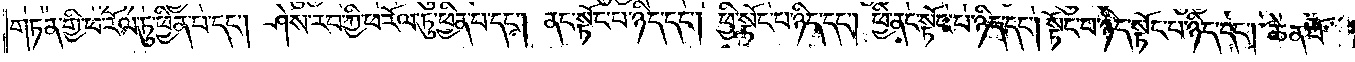གཏན་གྱི་ཕ་རོལ་ཏུ་ཕྱིན་པ་དང༌། ཤེས་རབ་ཀྱི་ཕ་རོལ་ཏུ་ཕྱིན་པ་དང༌། ནང་སྟོང་པ་ཉིད་དང༌། ཕྱི་སྟོང་པ་ཉིད་དང༌། ཕྱི་ནང་སྟོང་པ་ཉིད་དང༌། སྟོང་པ་ཉིད་སྟོང་པ་ཉིད་དང༌། ཆེན་པོ་
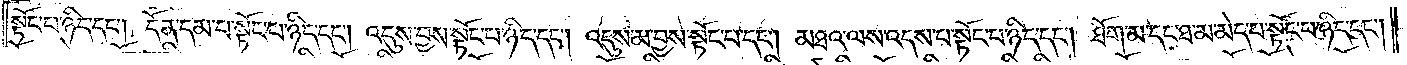སྟོང་པ་ཉིད་དང༌། དོན་དམ་པ་སྟོང་པ་ཉིད་དང༌། འདུས་བྱས་སྟོང་པ་ཉིད་དང༌། འདུས་མ་བྱས་སྟོང་པ་དང༌། མཐའ་ལས་འདས་པ་སྟོང་པ་ཉིད་དང༌། ཐོག་མ་དང་ཐ་མ་མེད་པ་སྟོང་པ་ཉིད་དང༌།
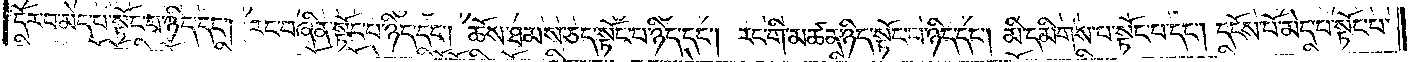དོར་བ་མེད་པ་སྟོང་པ་ཉིད་དང༌། རང་བཞིན་སྟོང་པ་ཉིད་དང༌། ཆོས་ཐམས་ཅད་སྟོང་པ་ཉིད་དང༌། རང་གི་མཚན་ཉིད་སྟོང་པ་ཉིད་དང༌། མི་དམིགས་པ་སྟོང་པ་དང༌། དངོས་པོ་མེད་པ་སྟོང་པ་
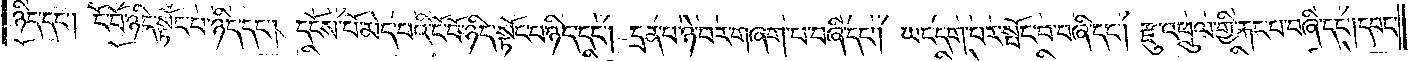ཉིད་དང༌། ངོ་བོ་ཉིད་སྟོང་པ་ཉིད་དང༌། དངོས་པོ་མེད་པའི་ངོ་བོ་ཉིད་སྟོང་པ་ཉིད་དང༌། དྲན་པ་ཉེ་བར་གཞག་པ་བཞི་དང༌། ཡང་དག་པར་སྤོང་བ་བཞི་དང༌། རྫུ་འཕྲུལ་གྱི་རྐང་པ་བཞི་དང༌། དབང་
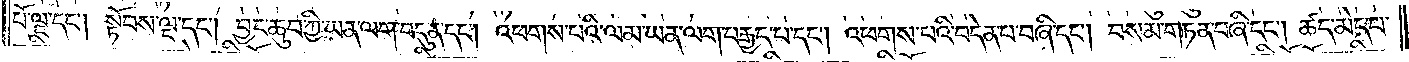པོ་ལྔ་དང༌། སྟོབས་ལྔ་དང༌། བྱང་ཆུབ་ཀྱི་ཡན་ལག་བདུན་དང༌། འཕགས་པའི་ལམ་ཡན་ལག་བརྒྱད་པ་དང༌། འཕགས་པའི་བདེན་པ་བཞི་དང༌། བསམ་གཏན་བཞི་དང༌། ཚད་མེད་པ་
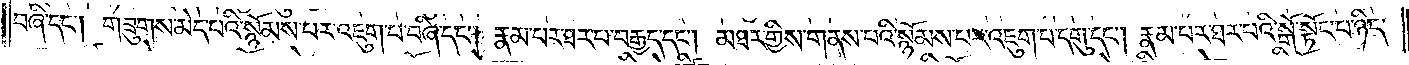བཞི་དང༌། གཟུགས་མེད་པའི་སྙོམས་བར་འཇུག་པ་བཞི་དང༌། རྣམ་པར་ཐར་པ་བརྒྱད་དང༌། མཐར་གྱིས་གནས་པའི་སྙོམས་པར་འཇུག་པ་དགུ་དང༌། རྣམ་པར་ཐར་པའི་སྒོ་སྟོང་པ་ཉིད་
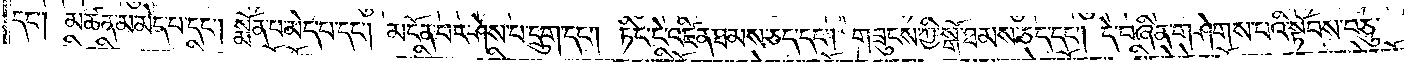དང༌། མཚན་མ་མེད་པ་དང༌། སྨོན་པ་མེད་པ་དང༌། མངོན་པར་ཤེས་པ་དྲུག་དང༌། ཏིང་ངེ་འཛིན་ཐམས་ཅད་དང༌། གཟུངས་ཀྱི་སྒོ་ཐམས་ཅད་དང༌། དེ་བཞིན་གཤེགས་པའི་སྟོབས་བཅུ་
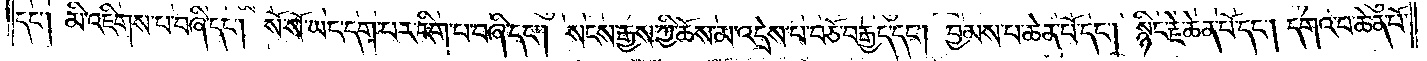དང༌། མི་འཇིགས་པ་བཞི་དང༌། སོ་སོ་ཡང་དག་པར་རིག་པ་བཞི་དང༌། སངས་རྒྱས་ཀྱི་ཆོས་མ་འདྲེས་པ་བཅོ་བརྒྱད་དང༌། བྱམས་པ་ཆེན་པོ་དང༌། སྙིང་རྗེ་ཆེན་པོ་དང༌། དགའ་བ་ཆེན་པོ་
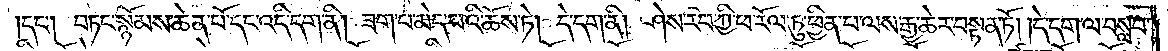དང༌། བཏང་སྙོམས་ཆེན་པོ་དང་འདི་དག་ནི། ཟག་པ་མེད་པའི་ཆོས་ཏེ། དེ་དག་ནི། ཤེས་རབ་ཀྱི་ཕ་རོལ་ཏུ་ཕྱིན་པ་ལས་རྒྱ་ཆེར་བསྟན་ཏོ། །དེ་དག་ལ་བསླབ་
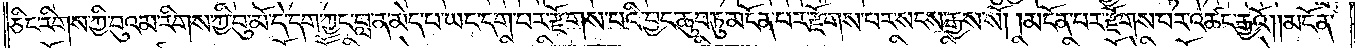ཅིང་རིགས་ཀྱི་བུའམ་རིགས་ཀྱི་བུ་མོ་དེ་དག་ཀྱང་བླ་ན་མེད་པ་ཡང་དག་པར་རྫོགས་པའི་བྱང་ཆུབ་ཏུ་མངོན་པར་རྫོགས་པར་སངས་རྒྱས་སོ། །མངོན་པར་རྫོགས་པར་འཚང་རྒྱའོ། །མངོན་
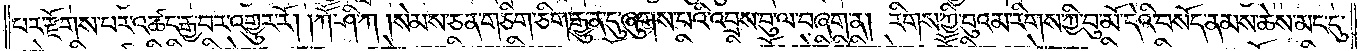པར་རྫོགས་པར་འཚང་རྒྱ་བར་འགྱུར་རོ། །ཀཽ་ཤི་ཀ །སེམས་ཅན་གཅིག་ཅིག་རྒྱུན་དུ་ཞུགས་པའི་འབྲས་བུ་ལ་བཞག་ན། རིགས་ཀྱི་བུའམ་རིགས་ཀྱི་བུ་མོ་དེའི་བསོད་ནམས་ཆེས་མང་དུ་
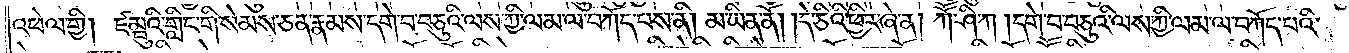འཕེལ་གྱི། ཛམྦུའི་གླིང་གི་སེམས་ཅན་རྣམས་དགེ་བ་བཅུའི་ལས་ཀྱི་ལམ་ལ་བཀོད་པས་ནི། མ་ཡིན་ནོ། །དེ་ཅིའི་ཕྱིར་ཞེ་ན། ཀཽ་ཤི་ཀ །དགེ་བ་བཅུའི་ལས་ཀྱི་ལམ་ལ་བཀོད་པའི་
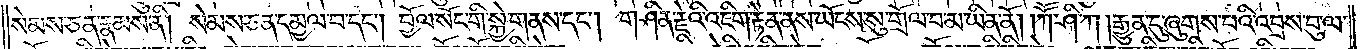སེམས་ཅན་རྣམས་ནི། སེམས་ཅན་དམྱལ་བ་དང༌། བྱོལ་སོང་གི་སྐྱེ་གནས་དང༌། གཤིན་རྗེའི་འཇིག་རྟེན་ནས་ཡོངས་སུ་གྲོལ་བ་མ་ཡིན་ནོ། །ཀཽ་ཤི་ཀ །རྒྱུན་དུ་ཞུགས་པའི་འབྲས་བུ་ལ་
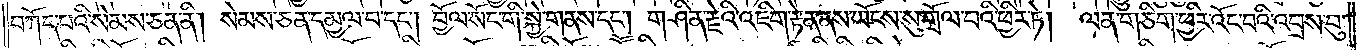བཀོད་པའི་སེམས་ཅན་ནི། སེམས་ཅན་དམྱལ་བ་དང༌། བྱོལ་སོང་གི་སྐྱེ་གནས་དང༌། གཤིན་རྗེའི་འཇིག་རྟེན་ནས་ཡོངས་སུ་གྲོལ་བའི་ཕྱིར་ཏེ། ལན་གཅིག་ཕྱིར་འོང་བའི་འབྲས་བུ་
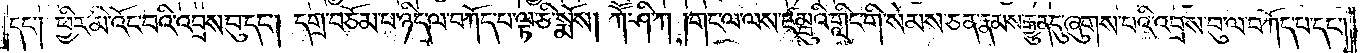དང༌། ཕྱིར་མི་འོང་བའི་འབྲས་བུ་དང༌། དགྲ་བཅོམ་པ་ཉིད་ལ་བཀོད་པ་ལྟ་ཅི་སྨོས། ཀཽ་ཤི་ཀ །གང་ལ་ལས་ཛམྦུའི་གླིང་གི་སེམས་ཅན་རྣམས་རྒྱུན་དུ་ཞུགས་པའི་འབྲས་བུ་ལ་བཀོད་པ་དང༌།
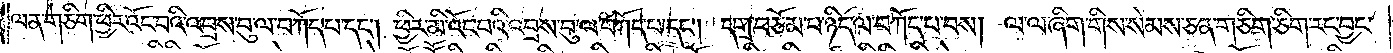ལན་གཅིག་ཕྱིར་འོང་བའི་འབྲས་བུ་ལ་བཀོད་པ་དང༌། ཕྱིར་མི་འོང་བའི་འབྲས་བུ་ལ་བཀོད་པ་དང༌། དགྲ་བཅོམ་པ་ཉིད་ལ་བཀོད་པ་བས། ལ་ལ་ཞིག་གིས་སེམས་ཅན་གཅིག་ཅིག་རང་བྱང་
